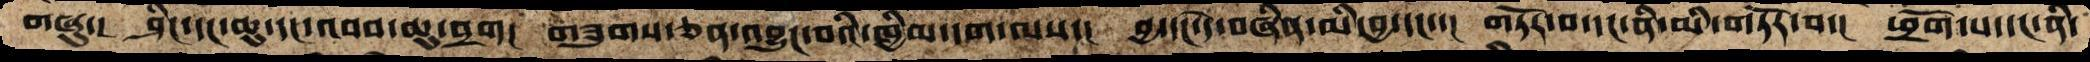གཞུ་།  ཤིང་དང་ཆུ་དང་འབབ་ཆུ་བྲག།  གཟུགས་ཅན་འབྱུང་བའི་ཁྱིམ་དག་ལས་།  བྱ་དང་དེ་བཞིན་མི་བྱ་དང་་།  གཏོར་བ་དང་ནི་མི་གཏོར་བ་། ཕྲོག་པ་དང་ནི་
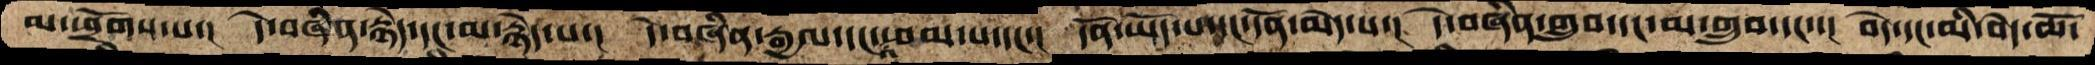མ་ཕྲོགས་པ་།  དེ་བཞིན་རྙེད་དང་མ་རྙེད་པ་།  དེ་བཞིན་རྒྱལ་དང་འཕམ་པ་དང་་།  དོན་ཡོད་པ་དང་དོན་མེད་པ་།  དེ་བཞིན་གྲུབ་དང་མ་གྲུབ་དང་་།  བདེ་དང་མི་བདེ་མོ་
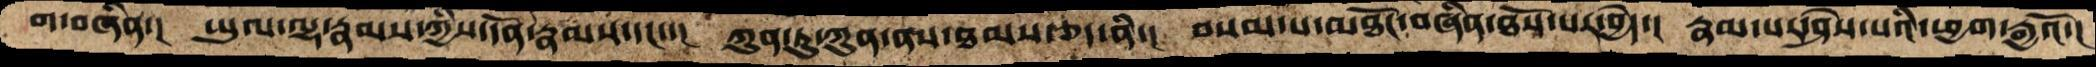ག་བཞིན་།  ཡུལ་ལྷ་རྣམས་ཀྱིས་དོན་རྣམས་དང་་།  ཀུན་ཏུ་ཀུན་ནས་ཐམས་ཅད་ནི་།  བསམ་པ་མཐོང་བཞིན་ཐོས་པར་བྱེད་།  རྣམ་པར་ཤེས་པའི་ཕྱག་རྒྱའོ་།
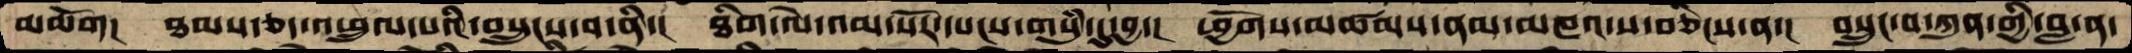མཆོག།  ཐམས་ཅད་འཕྲུལ་པའི་བསྲུངས་བ་ནི་།  ཐིག་ལེ་འམ་སོར་དཔངས་གསུཾ་དུ་བྱ་།  ཕྱོགས་མཚམས་ནམ་མཁའ་ས་བཅིངས་ན་།  བསྲུང་བ་ཀུན་གྱི་བླ་ན་
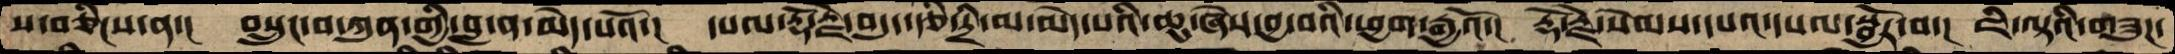ས་བཅིངས་ན་།  བསྲུངས་བ་ཀུན་གྱི་བླ་ན་མེད་པའོ་།  དཔལ་རྡོ་རྗེ་བདུད་རྩི་དྲི་མ་མེད་པའི་ཆུ་ཞེས་བྱ་བའི་ཕྱག་རྒྱའོ་།  རྡོ་རྗེ་སེམས་དཔའ་དཔལ་སྦྱོར་བ་།  ཇི་ལྟའི་གཟུཌ་
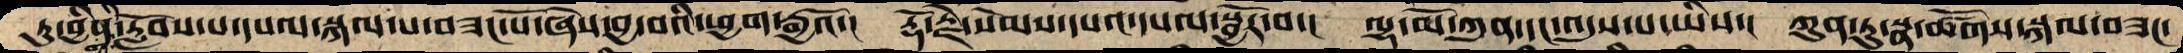ཏུ་བྱིན་གྱིས་རློབས་པ་དཔལ་སྐལ་པ་བཟང་པོ་ཞེས་བྱ་བའི་ཕྱག་རྒྱའོ་།  རྡོ་རྗེ་སེམས་དཔའ་དཔལ་སྦྱོར་བ་།  ལྷ་མོ་ཀུན་དང་འདུས་པ་ཡིས་།  ཀུན་ཏུ་སྣ་ཚོགས་སྐལ་བཟང་
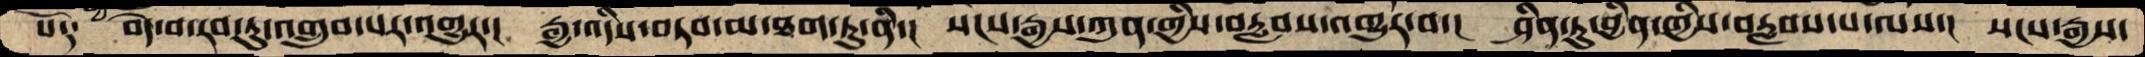པོ༑  བདེ་བ་རབ་ཏུ་འགྲུབ་པར་འགྱུར་།  རྒྱ་འདིས་བཏབ་མ་ཐག་ཏུ་ནི་།  སངས་རྒྱས་ཀུན་གྱིས་བརླབས་འགྱུར་བ་།  ཤིན་ཏུ་བྱིན་གྱིས་བརླབས་པ་ལས་།  སངས་རྒྱས་
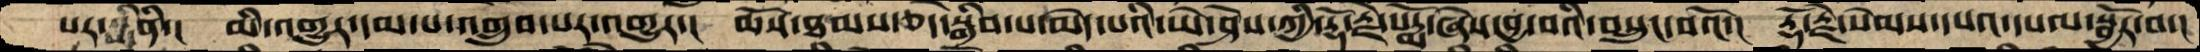པར་སྨིནི་། མི་འགྱུར་དམ་པ་འགྲུབ་པར་འགྱུར་། ཆོས་ཐམས་ཅད་སྒྲིབ་པ་མེད་པའི་ཡེ་ཤེས་ཀྱི་རྡོ་རྗེ་པདྨོ་ཞེས་བྱ་བའི་བསྲུང་བའོ་། རྡོ་རྗེ་སེམས་དཔའ་དཔལ་སྦྱོར་བ་།
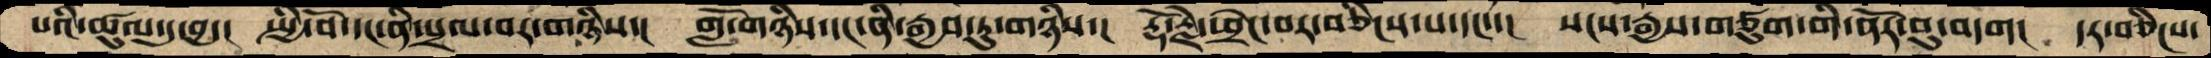པའི་ཚུལ་དུ་བྱ་།  སྤྱི་བོ་དང་ནི་དཔྲལ་བར་གཉིས་།  གློ་གཉིས་དང་ནི་རྒྱབ་ཏུ་གཉིས་།  རྡོ་རྗེ་ཕྲེང་བར་བཅིངས་པ་དང་་།  སངས་རྒྱས་གཙུག་གི་ནོར་བུ་བདག།  དར་བཅིངས་
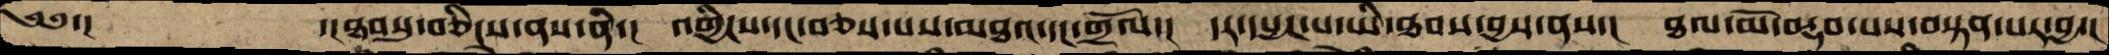༄༅་།     ་།ཐབསུ་བཅིངས་ནས་ནི་།  འགྱིངས་དང་བཅས་པས་མཐའ་དང་གྲོལ་།  དར་དཔྱང་པ་ཡི་ཐམས་བྱས་ནས་།  ཐལ་མོ་བརྡབ་པས་བསྟན་པར་བྱ་།
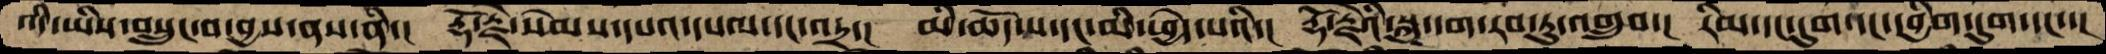འདི་ཡིས་བསྲུང་བ་བྱས་ནས་ནི་།  རྡོ་རྗེ་སེམས་དཔའ་དཔལ་དང་འདྲ་།  མི་ཆོད་པ་དང་མི་ཕྱེད་པའི་།  རྡོ་རྗེའི་སྐུ་དག་རབ་ཏུ་འགྲུབ་།  རིམ་དང་དུག་དང་དབྱིག་དུག་དང་་།
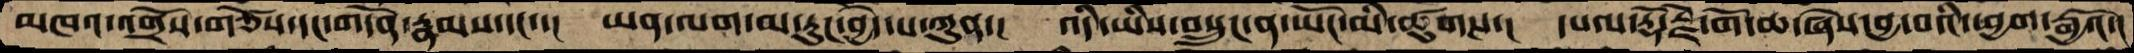མཁའ་འགྲོས་གཙོས་དང་གདོན་རྣམས་དང་་།   ཡན་ལག་མ་རུང་བྱེད་པ་ཀུན་།  འདི་ཡིས་བསྲུང་ན་ཡོང་མི་ཚུགས་།  དཔལ་རྡོ་རྗེ་གོ་ཆ་ཞེས་བྱ་བའི་ཕྱག་རྒྱའོ་།
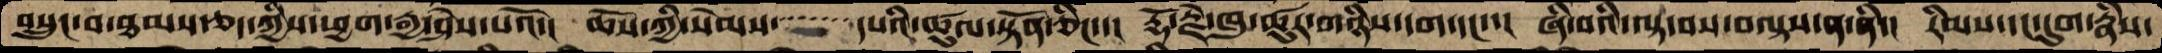བསྲུང་བ་ཐམས་ཅད་ཀྱིས་ཕྱག་རྒྱ་ཤེས་པའོ་།  ཆོས་ཀྱི་སེམས་    དཔའི་ཚུལ་སྟོན་ཅིང་་།  རྡོ་རྗེ་ཁུ་ཚུར་གཉིས་དག་དང་་།  ཞི་བའི་ལྟ་བས་བལྟས་ན་ནི་།  རིམས་དང་དུག་རྣཾས་
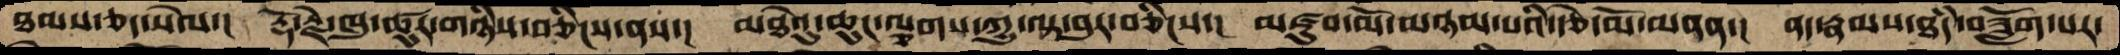ཐམས་ཅད་སེལ་།  རྡོ་རྗེ་ཁུ་ཚུར་གཉིས་བཅིངས་ནས་།  མཐེའུ་ཆུང་ལྕགས་ཀྱུ་ལྟ་བུར་བཅིངས་།  མཛུབ་མོ་མཉམ་པའི་རྩེ་མོ་མནན་།  ནད་རྣམས་ཐཾད་བཟློག་པར་
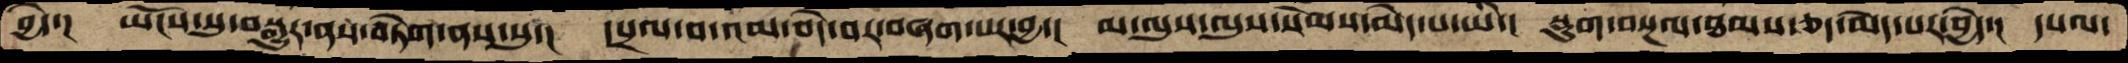བྱེད་།  ཡོངས་སུ་བསྒྱུར་ནས་བཏེག་ནས་སུ་།  དཔྲལ་བ་འམ་བདེ་བར་བཞག་པར་བྱ་།  མ་ལུས་ལུས་སེམས་མེད་པ་ཡི་།  སྡུག་བསྔལ་ཐམས་ཅད་མེད་པར་བྱེད་།  དཔལ་
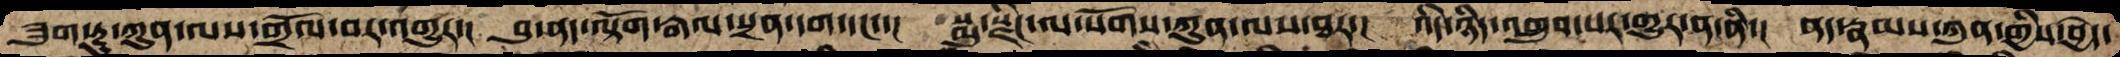ཟུག་རྔུ་ཀུན་ལས་གྲོལ་བར་འགྱུར་།  བུ་ནད་ལྟོག་རྒལ་སྲན་དག་དང་་།  སྨུ་སྫིང་ལ་སོགས་ཀུན་ལས་ཐར་།  འདི་ཉིད་འགྲུབ་པར་གྱུར་ན་ནི་།  ནད་རྣམས་ཀུན་གྱིས་བྱེད་
